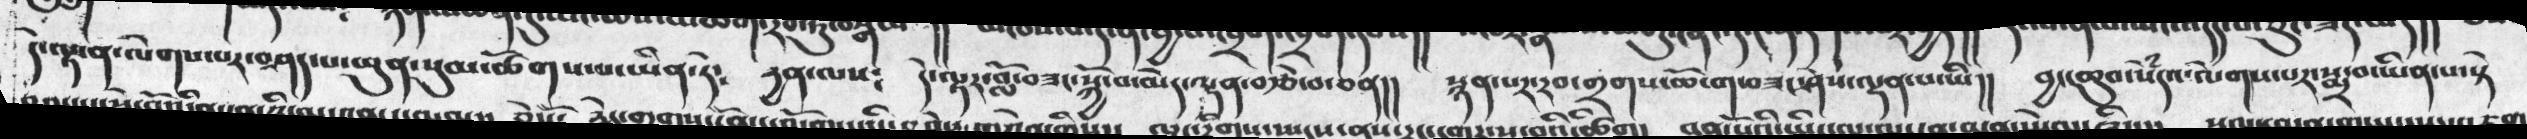དེ་ལྟ་ན་ལེགས་པར་བཤད་པ་ཕུན་སུམ་ཚོགས་པ་ཡིན་ཏེ༴    རྱན་ལས༴   དེ་ལྟར་བློ་བཟང་སྐྱོ་བ་མེད་ལྡན་བརྩེ་བ་ཅན།།  སྙན་པར་རབ་གྲགས་ཆོ་ག་བཟང་ཤེས་ལྡན་པ་ཡི།།  བྱང་ཆུབ་སེཾདའ་ལེགས་པར་སྨྲ་བ་ཡིན་པ་སྟེ
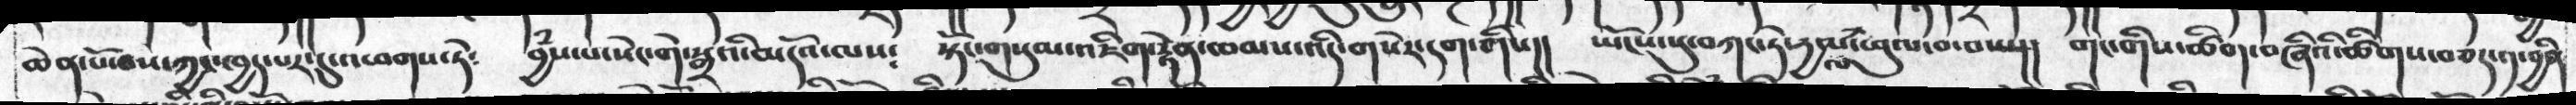ཆེན་པོ་བས་ཀྱང་ཁྱད་པར་དུ་འཕགས་ཏེ༴  བྱཾས་པ་སེང་གེ་སྒྲའི་མདོའ་ལས༴  སྟོང་གསུམ་འཇིག་རྟེན་ཁམས་འདིར་གསེར་དག་གིས།།  ཡོངས་སུ་བཀང་ཏེ་རྱལ་ལ་ཕུལ་བ་བས་།།   གང་གིས་ཚིག་བཞིའི་ཚིགས་བཅད་༡བྱིན་
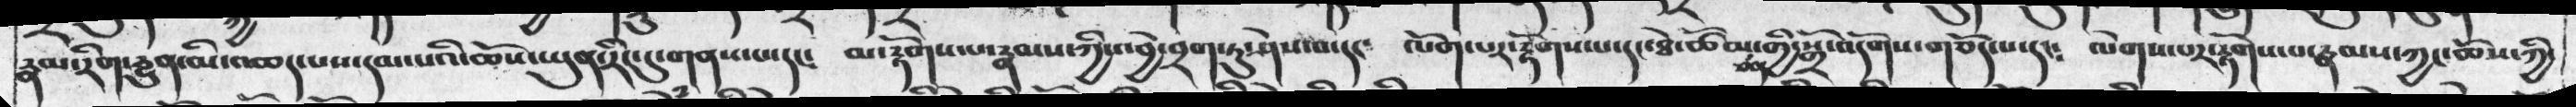རྣམ་རིག་དྱུན་མི་འཆད་པས་དམ་པའི་ཆོས་ཡུནརིང་དུ་གནས་པ་དང་   མ་རྟོགས་པ་རྣམས་ཀྱི་འབྱེ་བྲག་ཏུ་ཤེས་པ་དང༴  ལོག་པར་རྟོགས་པ་དང་ཐེ་ཚོམ་ཅན་གྱི་སྒྲོ་འདོགས་གཅོད་པ་དང༴  ལེགས་པར་རྟོགས་པ་རྣམས་ཀྱང་ཆོས་ཀྱི་
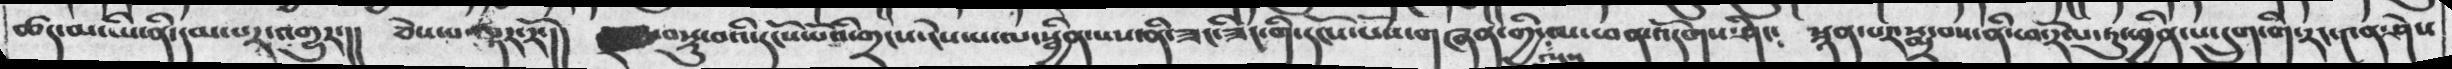ཚད་མ་ཡི་ནི་དམ་པར་འགྱུར་།།  ཅེས་པ་ལྟར་རོ་།།  བསྡུ་བའི་དངོས་པོའི་གྲངས་ངེས་ཡ་ལ་སྦྱིན་པས་ནི་ཟང་ཟིང་གི་དངོས་པོས་གཞན་གྱི་ལས་ལ་ཕན་འདོགས་ཤིང༴  སྙན་པར་སྨྲ་བས་ནི་ཕ་རོལ་ཏུ་ཕྱིན་པ་དྲུག་གི་རང་༤ན་ཤེས
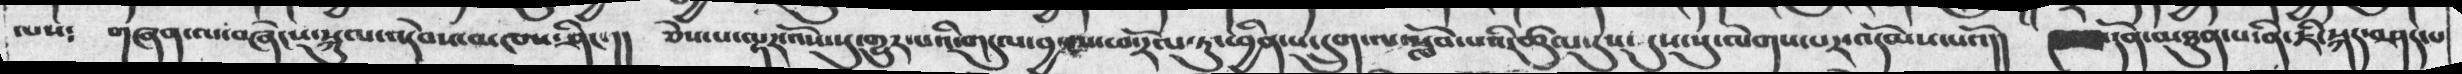ལས༴  གཞན་ལ་བཞེངས་སྐུལ་འདེབས་མཁས་ཤེང་།།  ཅེས་པ་ལྟར་འོས་སུ་གྱུར་པའི་གདུལ་བྱ་ལས་ཕརོལ་ཏུ་ཕྱིན་པ་དྲུག་ལ་སློབ་པའི་ཚུལ་དུས་  དུས་སུ་ལེགས་པར་འདོམས་པའོ།།  དོན་མཐུན་པ་ནི་ཇི་སྐད་བཤད་པ
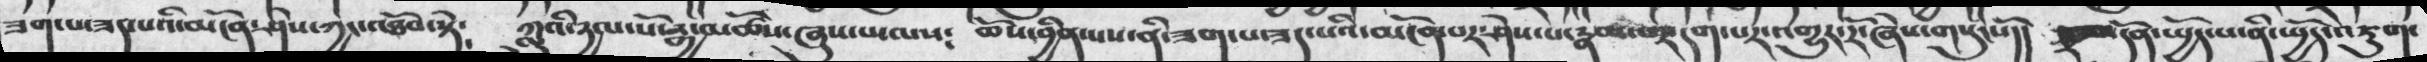ཟག་པ་ཟད་པའི་མངོན་ཤེས་ཀྱང་འཐོབ་སྟེ༴  ཀླུའི་རྱལ་པོ་རྒྱ་མཚོས་ཞུས་པ་ལས༴  ཆོས་བྱིན་པས་ནི་ཟག་པ་ཟད་པའི་མངོན་པར་ཤེས་པར་རྣམ་པར་དག་པར་འགྱུར་རོ་ཞེས་གསུངསོ།།  དོན་སྤྱོད་པ་ནི་ཕྱོད་འཇུག་
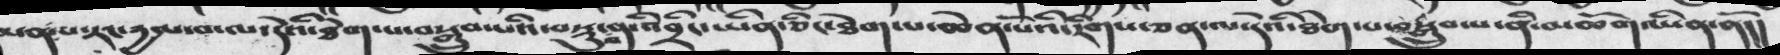ཡན་པ་རང་དྱལ་བ་ལ་དེའི་ཐེག་པ་བསྒྲུབ་པའི་བསྡུ་བ་ནི་འབྲིང་ཡིན་ཅིང་ཐེག་པ་ཆེན་པོའི་རིགས་ཅན་ལ་དེའི་ཐེག་པ་བསྒྲུབ་པ་ནི་མཆོག་ཡིན་ནོ།།
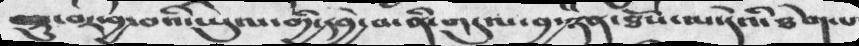བསྡུ་བར་བྱ་བའི་ཡུལ་གྱི་དབྱེ་བ་ནི་གདུལ་བྱ་ཉན་ཐོས་མ་དེའི་ཐེག་པ་
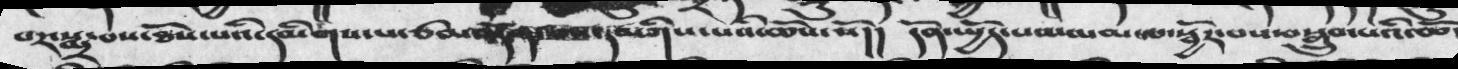བར་སྨྲ་བས་ཐོས་པའི་དམིགས་པ་ཙམ་འདོན་པས་དམིགས་པའི་ཆོས་སོ།།  དོན་སྤྱོད་པམ་མམ་ལ་སྦྱོར་པས་བསྒྲུབ་པའི་ཆོད་
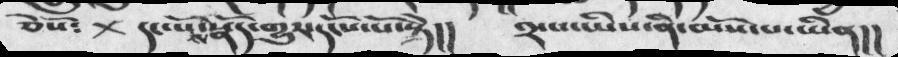ཅེསོ༴   དང་པས་སྣོད་གྱུར་དངོས་པོ་སྟེ།།  ༢་པ་ཡིས་ནི་མོས་པ་ཡིན།།
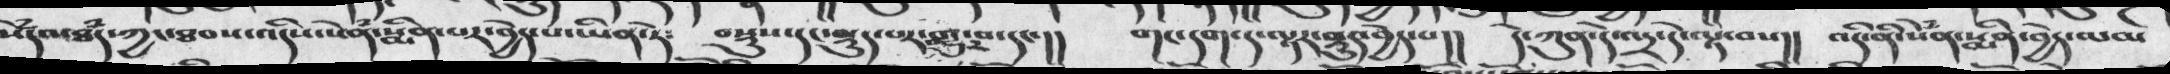སེཾད་མཐཾད་ཀྱང་ཐབས་འདིས་སེྃན་སྨིན་པར་བྱེད་པ་ཡིན་ཏེ༴  བསྡུས་དང་སྡུ་པར་གྱུར་བ་དང་།།  གང་དག་ལ་ལྟར་སྡུད་བྱེད་པ།།  དེ་ཀུན་དེ་འདྲ་དེ་ལྟ་བས།།  འདི་ནི་སེཾན་སྨིན་བྱེད་ལམ
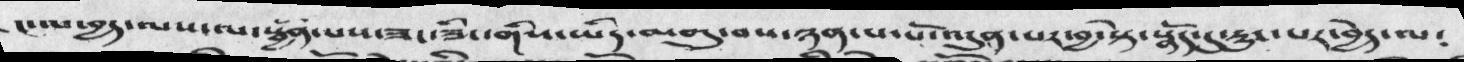ང་ལ་བྱད་ལས་ལ་སྦྱིན་པས་ཟང་ཟིང་གིས་ཡིད་མགུ་བས་ཉན་པ་པོ་འདུན་པར་བྱ་སྟེ་སྣོད་དུ་དརུང་པར་བྱེད་ལ༴
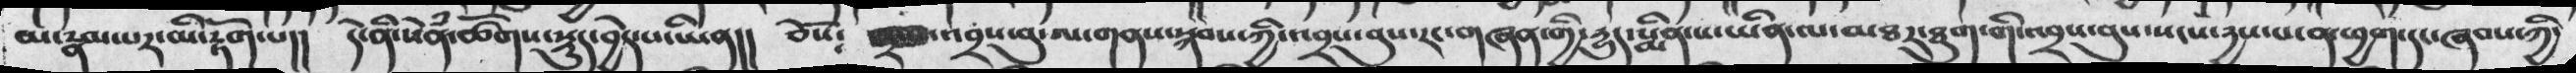མ་རྣམ་པར་མི་རྟོག་པ།།  དེ་ནི་སེཾན་ཚོགས་སྡུད་བྱེད་པ་ཡིན།།  ཅེསོ༴  འབྲས་བུ་ལ་གནས་སྐབས་ཀྱི་འབྲས་བུས་རང་གཞན་གྱི་དྱུད་སྨནི་པ་ཡིན་ལ་མཐར་ཐུག་གི་འབྲས་བུ་སངས་རྱས་པ་ན་ཕྱག་དང་ཞབས་ཀྱི་
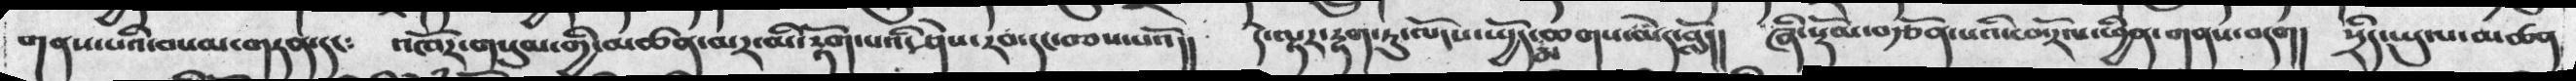གནས་པའི་བསམ་གཏན་དང༴  འཁོར་གསུམ་གྱི་མཚན་མར་མི་རྟོག་པའི་ཤེས་རབ་དང་བཅས་པའོ།།  དེ་ལྟར་རྟག་ཏུ་ལོངས་སྤྱོད་མ་ཆགས་མེད་བློ།།  ཞི་སྡོམ་བརྩོན་པའི་ཕ་རོལ་ཕྱིན་གནས་བདག།  སྲིད་ཡུལ་མཚན
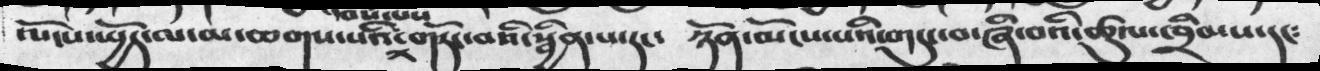ལོངས་སྤྱོད་ལ་མ་ཆགས་པའི་གཏོང་བའི་སྦྱིན་པ་དང༴  ཉོན་མོངས་པའི་གདུང་བ་ཞི་བའི་ཚུལ་ཁྲིམས་དང༴
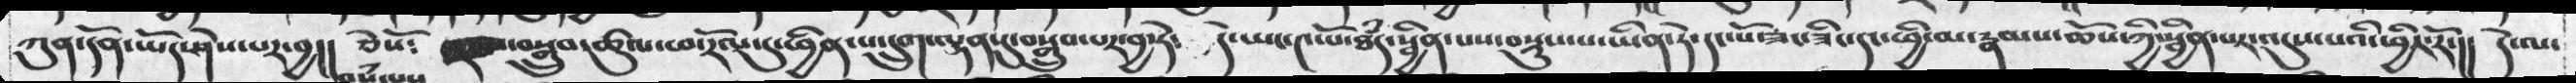ཀུན་དོན་ཡོད་ཤེས་པར་བྱ།།  ཅེསོ༴  བསྒྲུབ་ཚུལ་ཕ་རོལ་དུ་ཕྱིན་པ་དྲུག་དུ་བསྒྲུབ་པར་བྱ་ཏེ༴  དེ་ཡང་༤་པོ་ཐཾད་སྦྱིན་པས་བསྡུས་པ་ཡིན་ཏེ་དང་པོ་ཟང་ཟིང་དང་ཕྱི་མ་རྣམས་ཆོས་ཀྱི་སྦྱིན་པར་འདུས་པའི་ཕྱིར་རོ་།།  དེ་ལ་
